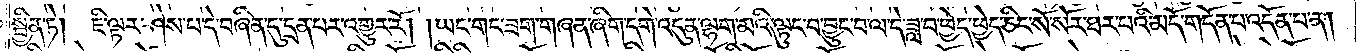སྦྱིན་ཏེ། ཇི་ལྟར་ཤེས་པ་དེ་བཞིན་དུ་དྲན་པར་འགྱུར་རོ། །ཡང་གང་ཟག་གཞན་ཞིག་དགེ་འདུན་ལྷག་མའི་ལྟུང་བ་བྱུང་བ་ལ་དེ་ཟླ་བ་ཕྱེད་ཕྱེད་ཅིང་སོ་སོར་ཐར་པའི་མདོ་གདོན་པ་འདོན་པ་ན།
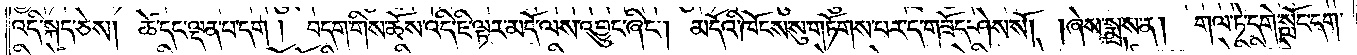འདི་སྐད་ཅེས། ཚེ་དང་ལྡན་པ་དག། བདག་གིས་ཆོས་འདི་ཇི་ལྟར་མདོ་ལས་འབྱུང་ཞིང༌། མདོའི་ཁོངས་སུ་གཏོགས་པར་ད་གཟོད་ཤེས་སོ། །ཞེས་སྨྲས་ན། གལ་ཏེ་དགེ་སློང་དག་
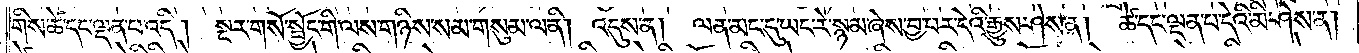གིས་ཚེ་དང་ལྡན་པ་འདི། སྔར་གསོ་སྦྱོང་གི་ལས་གཉིས་སམ་གསུམ་ལ་ནི། འདུས་ན། ལན་མང་དུ་ཡང་རེ་སྙམ་ཞེས་བྱ་བར་དེའི་རྒྱུས་ཤེས་ན། ཚེ་དང་ལྡན་པ་དེའི་མི་ཤེས་ན།
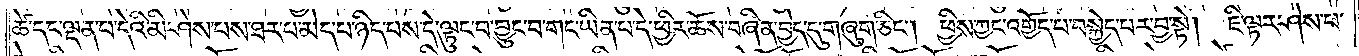ཚེ་དང་ལྡན་པ་དེའི་མི་ཤེས་པས་ཐར་པ་མེད་པ་ཉིད་པས་དེ་ལྟུང་བ་བྱུང་བ་གང་ཡིན་པ་དེ་ཕྱིར་ཆོས་བཞིན་བྱེད་དུ་གཞུག་ཅིང༌། ཕྱིས་ཀྱང་འགྱོད་པ་བསྐྱེད་པར་བྱ་སྟེ། ཇི་ལྟར་ཤེས་པ་
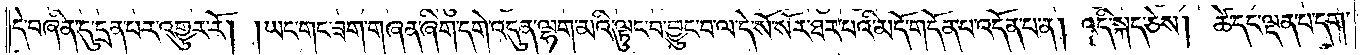དེ་བཞིན་དུ་དྲན་པར་འགྱུར་རོ། །ཡང་གང་ཟག་གཞན་ཞིག་དགེ་འདུན་ལྷག་མའི་ལྟུང་བ་བྱུང་བ་ལ་དེ་སོ་སོར་ཐར་པའི་མདོ་གདོན་པ་འདོན་པ་ན། འདི་སྐད་ཅེས། ཚེ་དང་ལྡན་པ་དག་
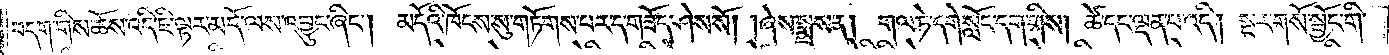བདག་གིས་ཆོས་འདི་ཇི་ལྟར་མདོ་ལས་འབྱུང་ཞིང༌། མདོའི་ཁོངས་སུ་གཏོགས་པར་ད་གཟོད་ཤེས་སོ། །ཞེས་སྨྲས་ན། གལ་ཏེ་དགེ་སློང་དག་གིས། ཚེ་དང་ལྡན་པ་འདི། སྔར་གསོ་སྦྱོང་གི་
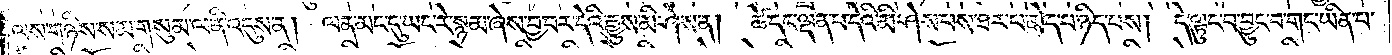ལས་གཉིས་སམ་གསུམ་ལ་ནི་འདུས་ན། ལན་མང་དུ་ཡང་རེ་སྙམ་ཞེས་བྱ་བར་དེའི་རྒྱུས་མི་ཤེས་ན།   ཚེ་དང་ལྡན་པ་དེའི་མི་ཤེས་པས་ཐར་པ་མེད་པ་ཉིད་པས། དེ་ལྟུང་བ་བྱུང་བ་གང་ཡིན་པ་
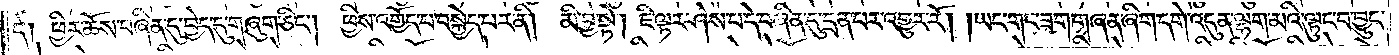དེ། ཕྱིར་ཆོས་བཞིན་དུ་བྱེད་དུ་གཞུག་ཅིང༌། ཕྱིས་འགྱོད་པ་བསྐྱེད་པར་ནི། མི་བྱ་སྟེ། ཇི་ལྟར་ཤེས་པ་དེ་བཞིན་དུ་དྲན་པར་འགྱུར་རོ། །ཡང་གང་ཟག་གཞན་ཞིག་དགེ་འདུན་ལྷག་མའི་ལྟུངབ་བྱུང་
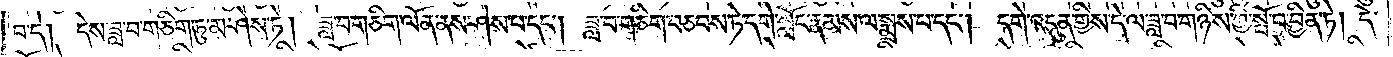བ་དེ། དེས་ཟླ་བ་གཅིག་ཏུ་མ་ཤེས་ཏེ། ཟླ་བ་གཅིག་ལོན་ནས་ཤེས་པ་དང༌། ཟླ་བ་གཅིག་བཅབས་ཏེ་དགེ་སློང་རྣམས་ལ་སྨྲས་པ་དང༌། དགེ་འདུན་གྱིས་དེ་ལ་ཟླ་བ་གཉིས་ཀྱི་སྤོ་བ་བྱིན་ཏེ། དེ་
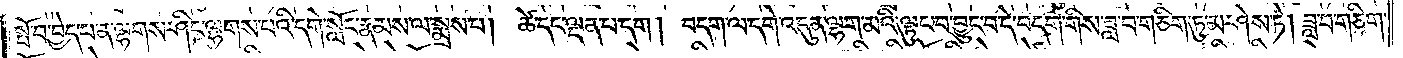སྤོ་བ་བྱེད་པ་ན་ལྷགས་ཤིང་ལྷགས་པའི་དགེ་སློང་རྣམས་ལ་སྨྲས་པ། ཚེ་དང་ལྡན་པ་དག། བདག་ལ་དགེ་འདུན་ལྷག་མའི་ལྟུང་བ་བྱུང་བ་དེ་བདག་གིས་ཟླ་བ་གཅིག་ཏུ་མ་ཤེས་ཏེ། ཟླ་བ་གཅིག་
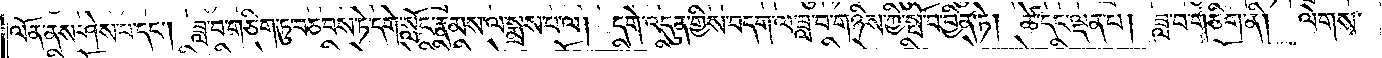ལོན་ནས་ཤེས་པ་དང༌། ཟླ་བ་གཅིག་ཏུ་བཅབས་ཏེ་དགེ་སློང་རྣམས་ལ་སྨྲས་པ་ལ། དགེ་འདུན་གྱིས་བདག་ལ་ཟླ་བ་གཉིས་ཀྱི་སྤོ་བ་བྱིན་ཏེ། ཚེ་དང་ལྡན་པ། ཟླ་བ་གཅིག་ནི། ལེགས་
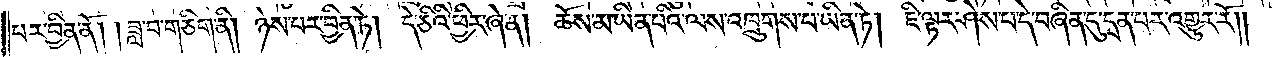བར་བྱིན་ནོ། །ཟླ་བ་གཅིག་ནི། ཉེས་པར་བྱིན་ཏེ། དེ་ཅིའི་ཕྱིར་ཞེ་ན། ཆོས་མ་ཡིན་པའི་ལས་འཁྲུགས་པ་ཡིན་ཏེ། ཇི་ལྟར་ཤེས་པ་དེ་བཞིན་དུ་དྲན་པར་འགྱུར་རོ༎
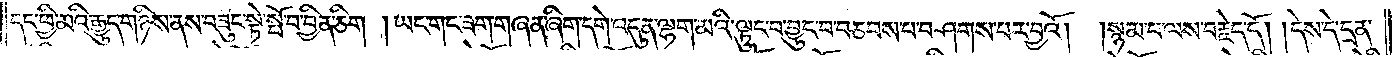དང་ཕྱི་མའི་རྒྱུད་གཉིས་ནས་བཟུང་སྟེ་སྤོ་བ་བྱིན་ཅིག། ཡང་གང་ཟག་གཞན་ཞིག་དགེ་འདུན་ལྷག་མའི་ལྟུང་བ་བྱུང་བ་བཅབས་པ་བཤགས་པར་བྱའོ།   །སྙམ་པ་ལས་བརྗེད་དོ། །དེས་དེ་དྲན་
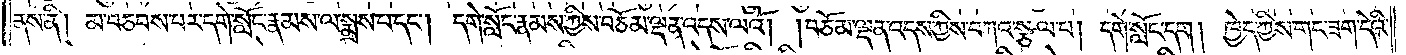ནས་ནི། མ་བཅབས་པར་དགེ་སློང་རྣམས་ལ་སྨྲས་པ་དང༌། དགེ་སློང་རྣམས་ཀྱིས་བཅོམ་ལྡན་འདས་ལའོ། །བཅོམ་ལྡན་འདས་ཀྱིས་བཀའ་སྩལ་པ། དགེ་སློང་དག། ཁྱེད་ཀྱིས་གང་ཟག་དེའི་
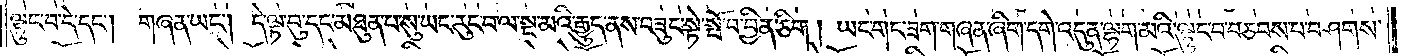ལྟུང་བ་དེ་དང༌། གཞན་ཡང༌། དེ་ལྟ་བུ་དང་མཐུན་པ་སུ་ཡང་རུང་བ་ལ་སྔ་མའི་རྒྱུད་ནས་བཟུང་སྟེ་སྤོ་བ་བྱིན་ཅིག། ཡང་གང་ཟག་གཞན་ཞིག་དགེ་འདུན་ལྷག་མའི་ལྟུང་བ་བཅབས་པ་བཤགས་
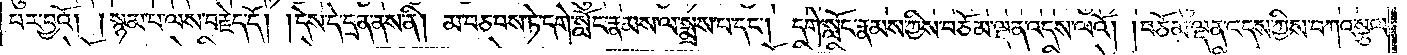པར་བྱའོ། །སྙམ་པ་ལས་བརྗེད་དོ། །དེས་དེ་དྲན་ནས་ནི། མ་བཅབས་ཏེ་དགེ་སློང་རྣམས་ལ་སྨྲས་པ་དང༌། དགེ་སློང་རྣམས་ཀྱིས་བཅོམ་ལྡན་འདས་ལའོ། །བཅོམ་ལྡན་འདས་ཀྱིས་བཀའ་སྩལ་
